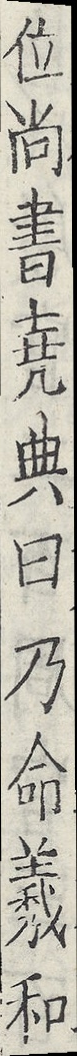位尚書堯典曰乃命羲和
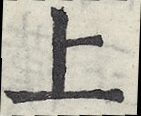上
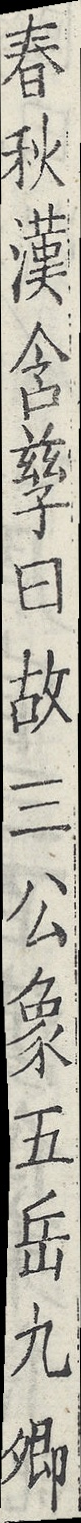春秋漢含孳曰故三公象五岳九卿
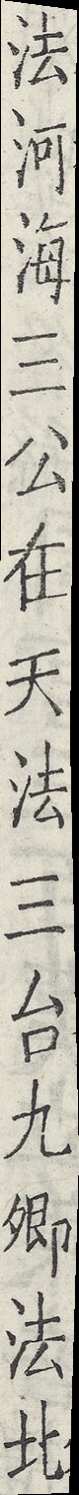法河海三公在天法三台九卿法北
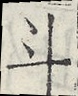斗
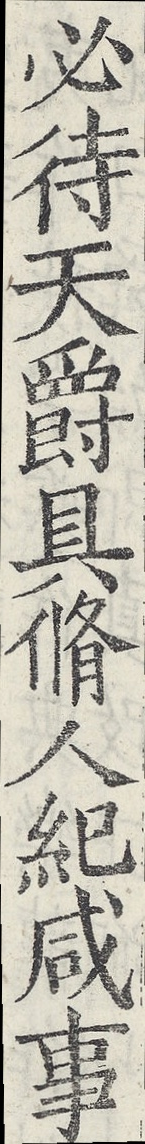必待天爵具脩人紀咸事
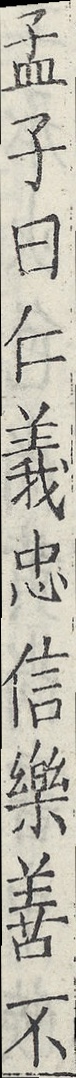孟子曰仁義忠信樂善不
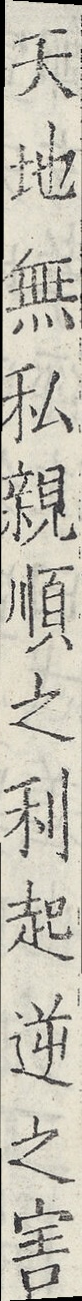天地無私親順之利起逆之害
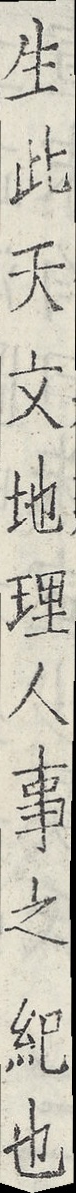生此天文地理人事之紀也
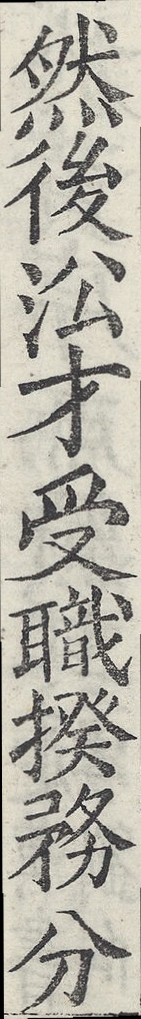然後沿才受職揆務分
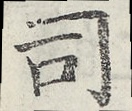司
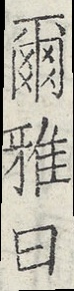爾雅曰
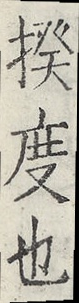揆度也
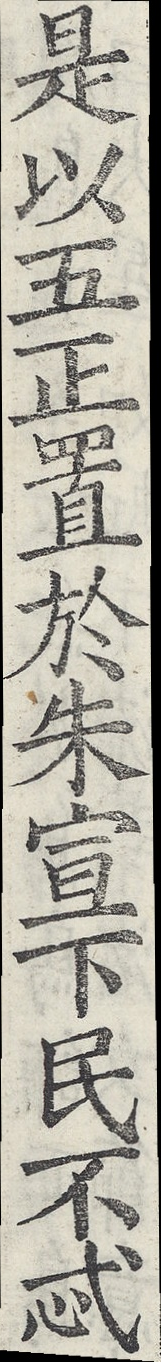是以五正置於朱宣下民不忒
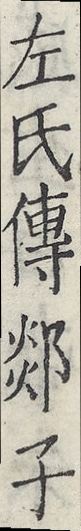左氏傳郯子
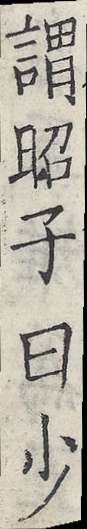謂昭子曰少
